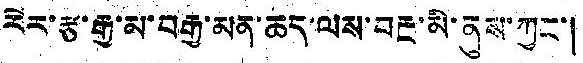རེར་རྩ་རྒྱ་མ་བརྒྱ་མན་ཆད་ལས་བརྔ་མི་ནུས་ཀྱང་།
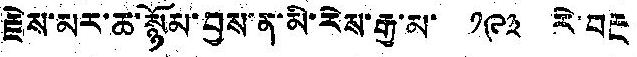རྗེས་མར་ཆ་སྙོམ་བྱས་ན་མི་རེས་རྒྱ་མ་ ༡༩༣ རེ་བརྔ
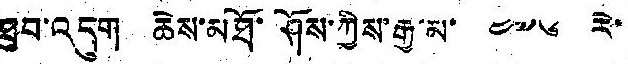ཐུབ་འདུག ཆེས་མཐོ་ཤོས་ཀྱིས་རྒྱ་མ་ ༤༧༦ རེ་
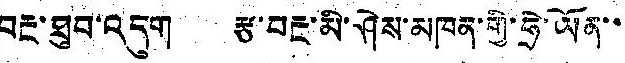བརྔ་ཐུབ་འདུག རྩ་བརྔ་མི་ཤེས་མཁན་གྱི་ཧྲེ་ཡོན་་
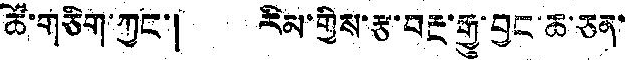ཚོ་གཅིག་ཀྱང་། རིམ་གྱིས་རྩ་བརྔ་རྒྱུ་བྱང་ཆ་ཅན་
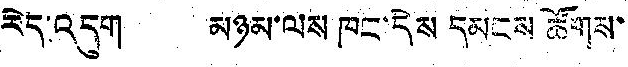རེད་འདུག མཉམ་ལས ཁང་དེས དམངས ཚོགས་
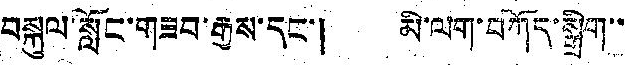བསྐུལ་སློང་གཟབ་རྒྱས་དང་། མི་ལག་བཀོད་སྒྲིག་་
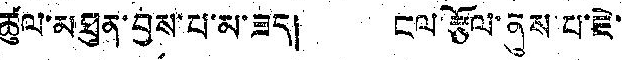ཚུལ་མཐུན་བྱས་པ་མ་ཟད། ངལ་རྩོལ་ནུས་པ་ཇེ་
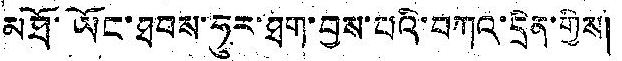མཐོ་ཡོང་ཐབས་ཧུར་ཐག་བྱས་པའི་བཀའ་དྲིན་གྱིས།
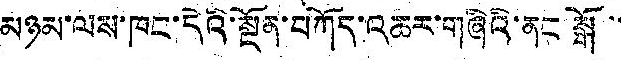མཉམ་ལས་ཁང་དེའི་སྔོན་བཀོད་འཆར་གཞིའི་ནང་སྒོ་་
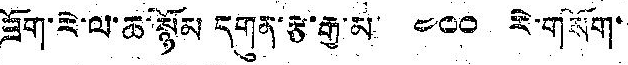ཟོག་རེ་ལ་ཆ་སྙོམ དགུན་རྩ་རྒྱ་མ་ ༤༠༠ རེ་གསོག་
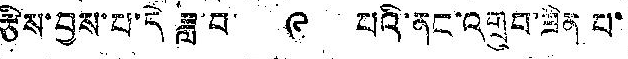རྩིས་བྱས་པ་དེ ཟླ་བ་ ༩ པའི་ནང་འགྲུབ་ཟིན པ་
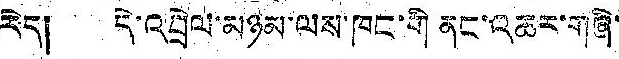རེད། དེ་འབྲེལ་མཉམ་ལས་ཁང་གི ནང་འཆར་གཞི་
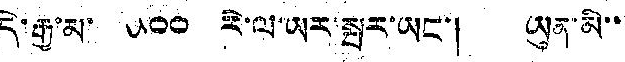དེ་རྒྱ་མ་ ༥༠༠ རེ་ལ་ཡར་སྤར་ཡང་། ཡུན་མི་་
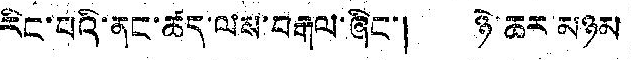རིང་བའི་ནང་ཚད་ལས་བརྒལ་ཞིང་། ཉེ་ཆར མཉམ
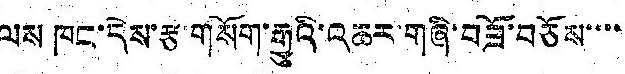ལས ཁང་དེས་རྩ་གསོག་རྒྱུའི་འཆར་གཞི་བཟོ་བཅོས་་་་
